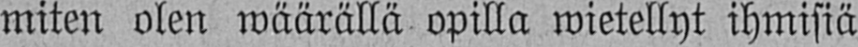miten olen wäärällä opilla wietellyt ihmisiä
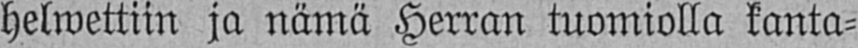helwettiin ja nämä Herran tuomiolla kanta-
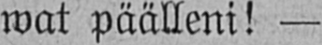wat päälleni! —
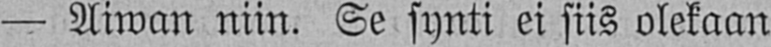— Aiwan niin. Se synti ei siis olekaan
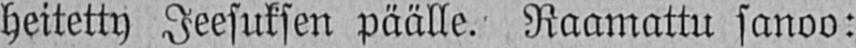heitetty Jeesuksen päälle. Raamattu sanoo:
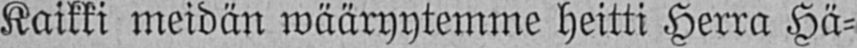Kaikki meidän wääryytemme heitti Herra Hä-
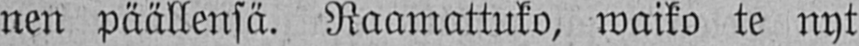nen päällensä. Raamattuko, waiko te nyt
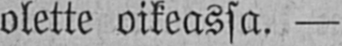olette oikeassa. —
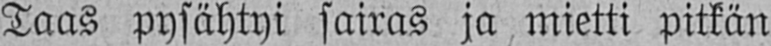Taas pysähtyi sairas ja mietti pitkän
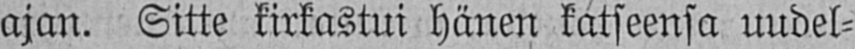ajan. Sitte kirkastui hänen katseensa uudel-
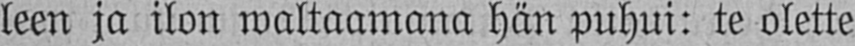leen ja ilon wakaamana hän puhui: te olette
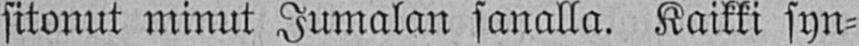sitonut minut Jumalan sanalla. Kaikki syn-
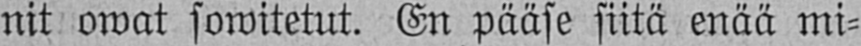nit owat sowitetut. En pääse siitä enää mi-
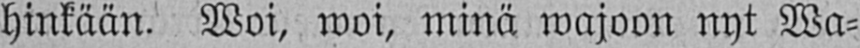hinkään. Woi, woi, minä wajoon nyt Wa-
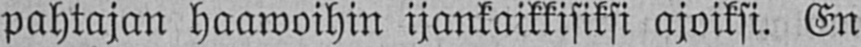pahtajan haawoihin ijankaikkisiksi ajoiksi. En
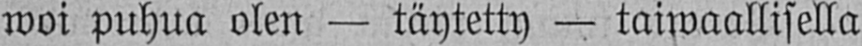woi puhua olen — täytetty — taiwaallisella
